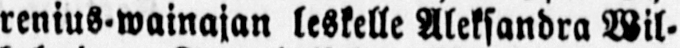renius-wainajan leskelle Aleksandra Wil-
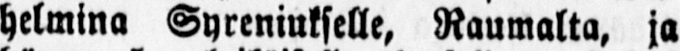helmina Syreniukselle, Raumalta, ja
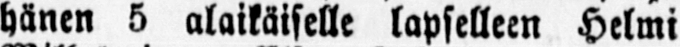hänen 5 alaikäiselle lapselleen Helmi
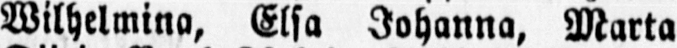Wilhelmina, Elsa Johanna, Marta
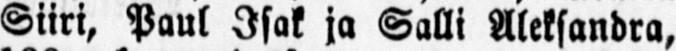Siiri, Paul Isak ja Salli Aleksandra,
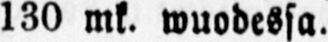130 mk. wuodessa.
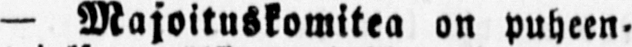— Majoituskomitea on puheen-
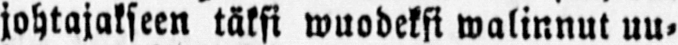johtajakseen täksi wuodeksi walinnut uu-
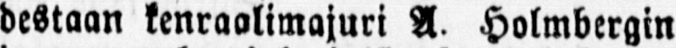destaan kenraalimajuri A. Holmbergin
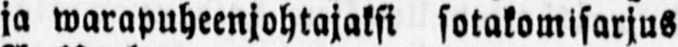ja warapuheenjohtajaksi sotakomisarjus
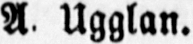A Ugglan.
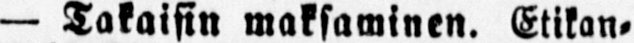— Takaisin maksaminen. Etikan,
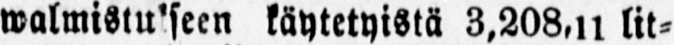walmistukseen käytetyistä 3,208,11 lit-
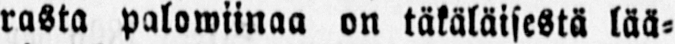rasta palowiinaa on täkäläisestä lää-
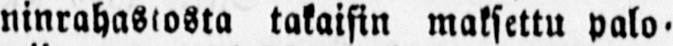ninrahastosta takaisin maksettu palo-
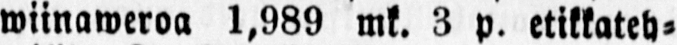wiinaweroa 1,989 mk. 3 p. etikkateh-
